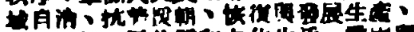域自治、抗美援朝、恢復與發展生產、
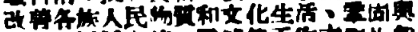改善各族人民物質和文化生活、鞏固與
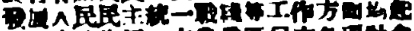發展人民民主統一戰綫等工作方面均起
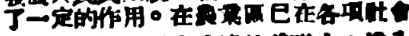了一定的作用。在農業區已在各項社會
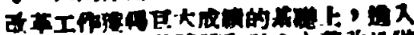改革工作獲得巨大成績的基礎上，進入
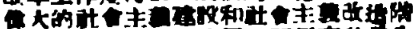偉大的社會主義建設和社會主義改造階
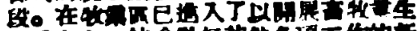段。在牧業區已進入了以開展畜牧業生
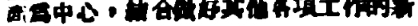產爲中心，結合做好其他各項工作的新
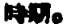時期。
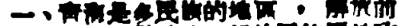一、靑海是多民族的地區 ，解放前
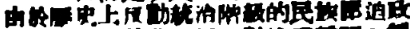由於歷史上反動統治階級的民族壓迫政
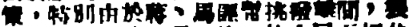策，特別由於蔣、馬匪幫挑撥離間，製
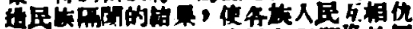造民族隔閡的結果，使各族人民互相仇
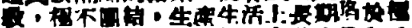殺，極不團結，生產生活上長期陷於極
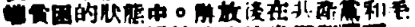端貧苦的狀態中。解放後在共產黨和毛
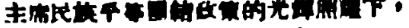主席民族平等團結政策的光輝照耀下，
